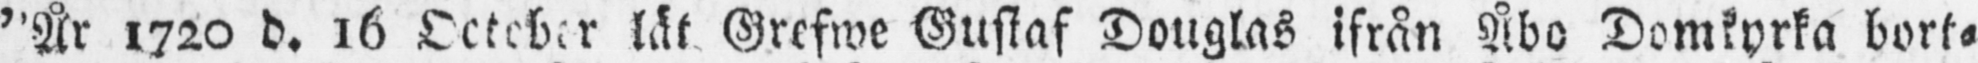"År 1720 d. 16 October lät Grefwe Gustaf Douglas ifrån Åbo Domkyrka bort-
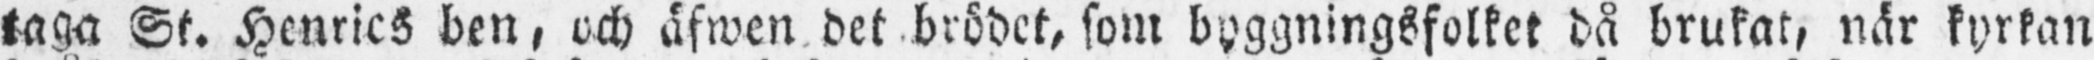taga St. Henrics ben, och äfwen det brödet, som byggningsfolket då brukat, när kyrkan
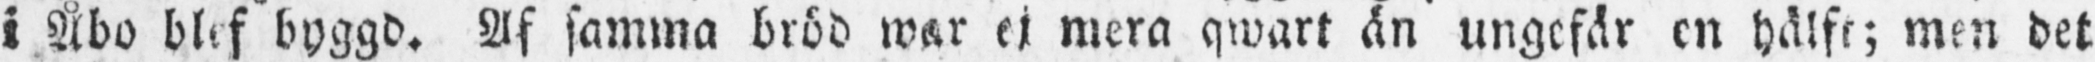i Åbo blef byggd. Af samma bröd war ej mera qwart än ungefär en hälft; men det
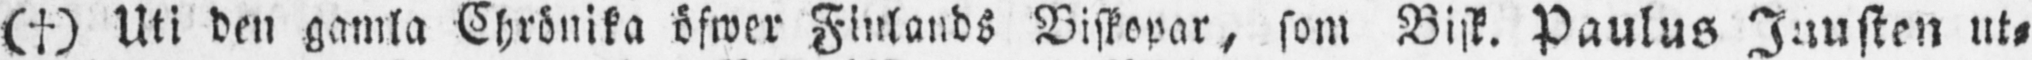(†) Uti den gamla Chrönika öfwer Finlands Biskopar, som Bisk. Paulus Juusten ut-
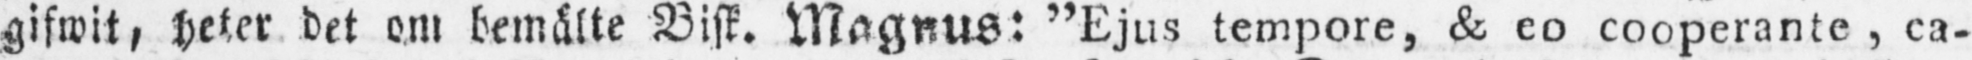gifwit, heter det om bemälte Bisk. Magnus: "Ejus tempore, & eo cooperante, ca-
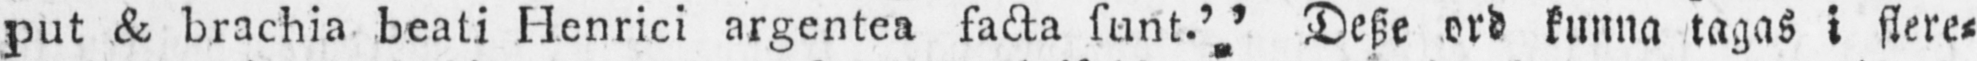put & brachia beati Henrici argentea facta funt." Desze ord kunna tagas i flere-
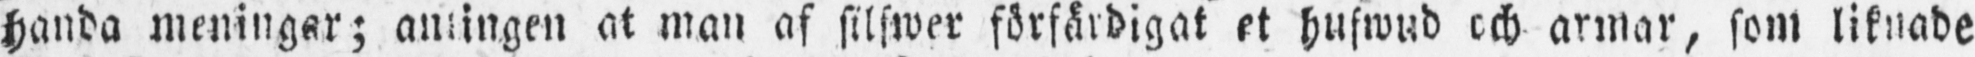handa meningar; antingen at man af silfwer förfärdigat et hufwud och armar, som liknade
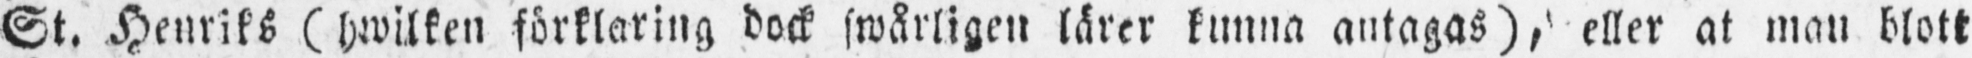St. Henriks (hwilken förklaring dock swårligen lärer kunna antagas), eller at man blott
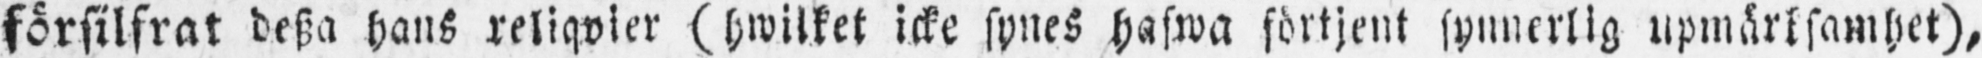försilfrat desza hans reliqvier (hwilket icke synes hafwa förtjent synnerlig uppmärksamhet),
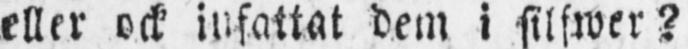eller ock infattat dem i silfwer?
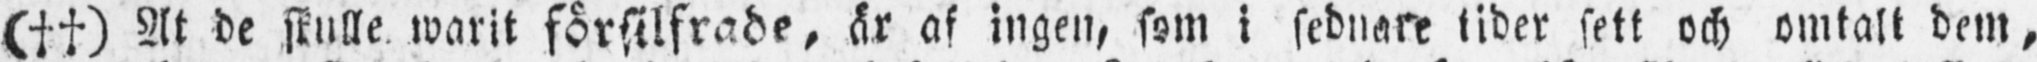(††) At de skulle warit försilfrade, är af ingen, som i sednare tider sett och omtalt dem,
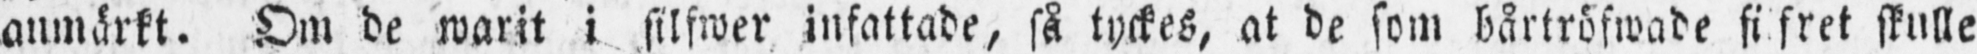anmärkt. Om de warit i silfwer infattade, så tyckes, at de som bårtröfwade silfret skulle
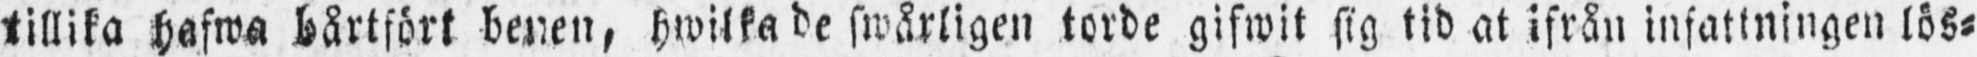tillika hafwa bårtfört benen, hwilka de swårligen torde gifwit sig tid at ifrån infattningen lös-
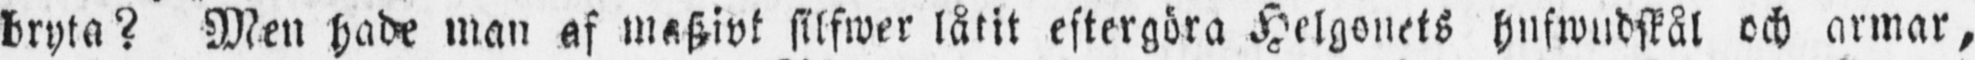bryta? Men hade man af maszivt silfwer låtit eftergöra Helgonets hufwudskål och armar,
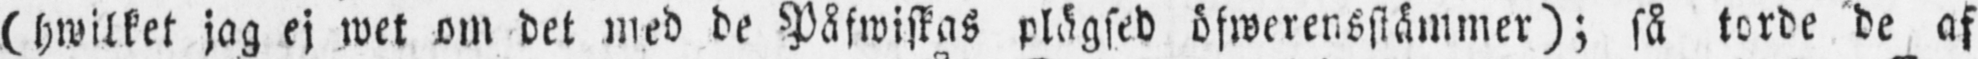(hwilket jag ej wet om det med de Påfwiskas plägsed öfwerensstämmer); så torde de af
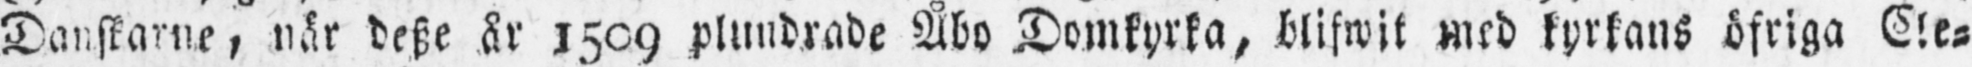Danskarne, när desze år 1509 plundrade Åbo Domkyrka, blifwit med kyrkans öfriga Cle-
